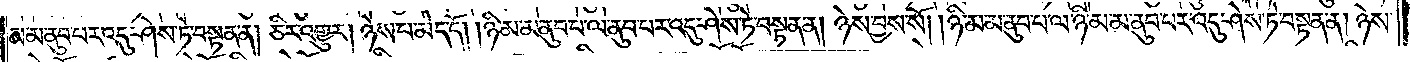མ་མ་ནུབ་པར་འདུ་ཤེས་ཏེ་བསྟན་ན། ཅིར་འགྱུར། ཉེས་པ་མེད་དོ། །ཉི་མ་མ་ནུབ་པ་ལ་ནུབ་པར་འདུ་ཤེས་ཏེ་བསྟན་ན། ཉེས་བྱས་སོ། །ཉི་མ་མ་ནུབ་པ་ལ་ཉི་མ་མ་ནུབ་པར་འདུ་ཤེས་ཏེ་བསྟན་ན། ཉེས་
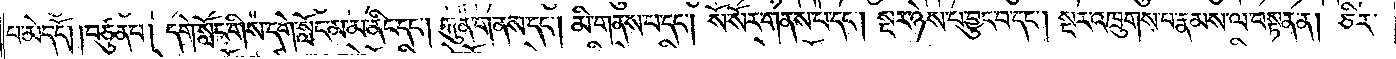པ་མེད་དོ། །བཙུན་པ། དགེ་སློང་གིས་དགེ་སློང་མ་མ་ནིང་དང༌། རྐུན་གནས་དང༌། མི་གནས་པ་དང༌། སོ་སོར་གནས་པ་དང༌། སྔར་ཉེས་པ་བྱུང་བ་དང༌། སྔར་འཁྲུགས་པ་རྣམས་ལ་བསྟན་ན། ཅིར་
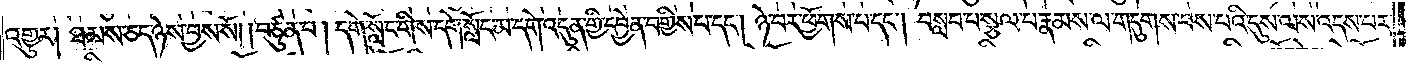འགྱུར། ཐམས་ཅད་ཉེས་བྱས་སོ། །བཙུན་པ། དགེ་སློང་གིས་དགེ་སློང་མ་དགེ་འདུན་གྱི་དབྱེན་བགྱིས་པ་དང༌། ཉེ་བར་ཕྱོགས་པ་དང༌། བསླབ་པ་སྩལ་པ་རྣམས་ལ་གདུགས་བས་པའི་དུས་ལས་འདས་པར་
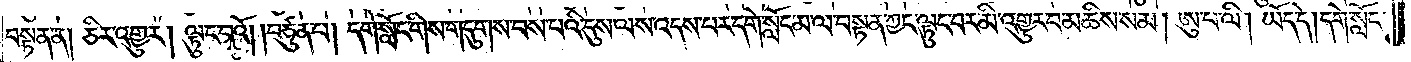བསྟན་ན། ཅིར་འགྱུར། ལྟུང་བའོ། །བཙུན་པ། དགེ་སློང་གིས་གདུགས་བས་པའི་དུས་ལས་འདས་པར་དགེ་སློང་མ་ལ་བསྟན་ཀྱང་ལྟུང་བར་མི་འགྱུར་བ་མཆིས་སམ། ཨུ་པ་ལི། ཡོད་དེ། དགེ་སློང་
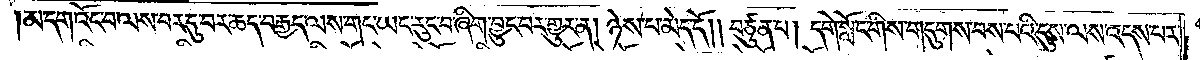།མ་དག་འོང་བ་ལས་བར་དུ་བར་ཆད་བརྒྱད་ལས་གང་ཡང་རུང་བ་ཞིག་བྱུང་བར་གྱུར་ན། ཉེས་པ་མེད་དོ། །བཙུན་པ། དགེ་སློང་གིས་གདུགས་བས་པའི་དུས་ལས་འདས་པར་
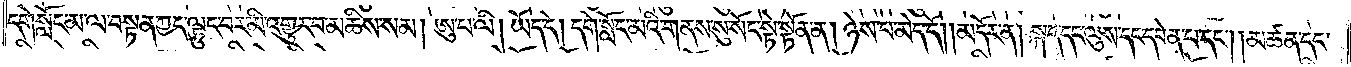དགེ་སློང་མ་ལ་བསྟན་ཀྱང་ལྟུང་བར་མི་འགྱུར་བ་མཆིས་སམ། ཨུ་པ་ལི། ཡོད་དེ། དགེ་སློང་མའི་གནས་སུ་སོང་སྟེ་སྟོན་ན། ཉེས་པ་མེད་དོ།    །མདོར་ན། སྐད་དང་ལུས་དང་དབེན་པ་དང༌། །མཚན་དང་
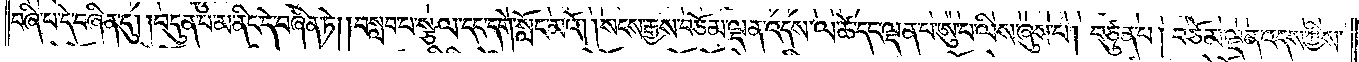བཞི་པ་དེ་བཞིན་དུ། །བདུན་པ་མ་ནིང་དེ་བཞིན་ཏེ། །བསླབ་པ་སྩལ་དང་དགེ་སློང་མའོ། །སངས་རྒྱས་བཅོམ་ལྡན་འདས་ལ་ཚེ་དང་ལྡན་པ་ཨུ་པ་ལིས་ཞུས་པ། བཙུན་པ། བཅོམ་ལྡན་འདས་ཀྱིས་
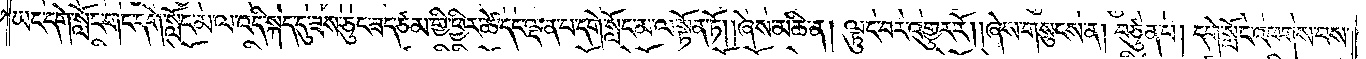ཡང་དགེ་སློང་གང་དགེ་སློང་མ་ལ་འདི་སྐད་དུ་ཟས་ཅུང་ཟད་ཙམ་གྱི་ཕྱིར་ཚེ་དང་ལྡན་པ་དགེ་སློང་མ་ལ་སྟོན་ཏོ། །ཞེས་མཆི་ན། ལྟུང་བར་འགྱུར་རོ། །ཞེས་གསུངས་ན། བཙུན་པ། དགེ་སློང་འཕགས་པས་
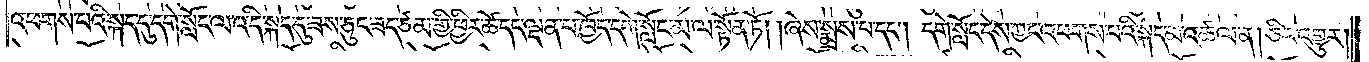འཕགས་པའི་སྐད་དུ་དགེ་སློང་ལ་འདི་སྐད་དུ་ཟད་ཅུང་ཟད་ཙམ་གྱི་ཕྱིར་ཚེ་དང་ལྡན་པ་ཁྱོད་དགེ་སློང་མ་ལ་སྟོན་ཏོ། །ཞེས་སྨྲས་པ་དང༌། དགེ་སློང་དེས་ཀྱང་འཕགས་པའི་སྐད་མ་འཚལ་ན། ཅིར་འགྱུར་
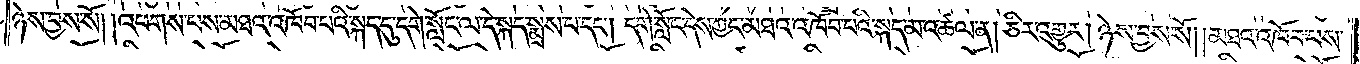ཉེས་བྱས་སོ། །འཕགས་པས་མཐའ་འཁོབ་པའི་སྐད་དུ་དགེ་སློང་ལ་དེ་སྐད་སྨྲས་པ་དང༌། དགེ་སློང་དེས་ཀྱང་མཐའ་འཁོབ་པའི་སྐད་མ་འཚལ་ན། ཅིར་འགྱུར། ཉེས་བྱས་སོ། །མཐའ་འཁོབ་པས་
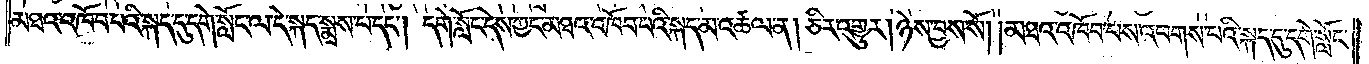མཐའ་འཁོབ་པའི་སྐད་དུ་དགེ་སློང་ལ་དེ་སྐད་སྨྲས་པ་དང༌། དགེ་སློང་དེས་ཀྱང་མཐའ་འཁོབ་པའི་སྐད་མ་འཚལ་ན། ཅིར་འགྱུར། ཉེས་བྱས་སོ། །མཐའ་འཁོབ་པས་འཕགས་པའི་སྐད་དུ་དགེ་སློང་
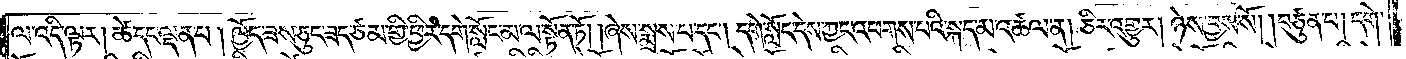ལ་འདི་ལྟར། ཚེ་དང་ལྡན་པ། ཁྱོད་ཟས་ཅུང་ཟད་ཙམ་གྱི་ཕྱིར་དགེ་སློང་མ་ལ་སྟོན་ཏོ། །ཞེས་སྨྲས་པ་དང༌། དགེ་སློང་དེས་ཀྱང་འཕགས་པའི་སྐད་མ་འཚལ་ན། ཅིར་འགྱུར། ཉེས་བྱས་སོ། །བཙུན་པ། དགེ་
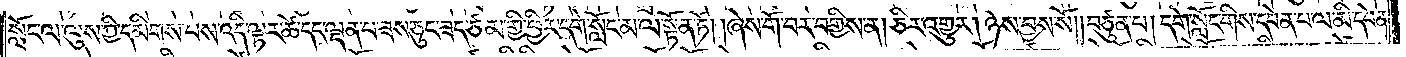སློང་ལ་ལུས་ཀྱི་དམིགས་པས་འདི་ལྟར་ཚེ་དང་ལྡན་པ་ཟས་ཅུང་ཟད་ཙམ་གྱི་ཕྱིར་དགེ་སློང་མ་ལ་སྟོན་ཏོ། །ཞེས་གོ་བར་བགྱིས་ན། ཅིར་འགྱུར། ཉེས་བྱས་སོ། །བཙུན་པ། དགེ་སློང་གིས་དབེན་པ་ལ་མི་དབེན་
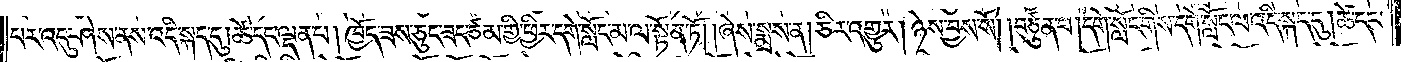པར་འདུ་ཤེས་ནས་འདི་སྐད་དུ། ཚེ་དང་ལྡན་པ། ཁྱོད་ཟས་ཅུང་ཟད་ཙམ་གྱི་ཕྱིར་དགེ་སློང་མ་ལ་སྟོན་ཏོ། །ཞེས་སྨྲས་ན། ཅིར་འགྱུར། ཉེས་བྱས་སོ། །བཙུན་པ། དགེ་སློང་གིས་དགེ་སློང་ལ་འདི་སྐད་དུ། ཚེ་དང་
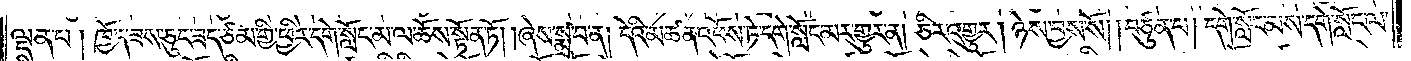ལྡན་པ། ཁྱོད་ཟས་ཅུང་ཟད་ཙམ་གྱི་ཕྱིར་དགེ་སློང་མ་ལ་ཆོས་སྟོན་ཏོ། །ཞེས་སྨྲ་བ་ན། དེའི་མཚན་འཕོས་ཏེ་དགེ་སློང་མར་གྱུར་ན། ཅིར་འགྱུར། ཉེས་བྱས་སོ། །བཙུན་པ། དགེ་སློང་མས་དགེ་སློང་ལ་
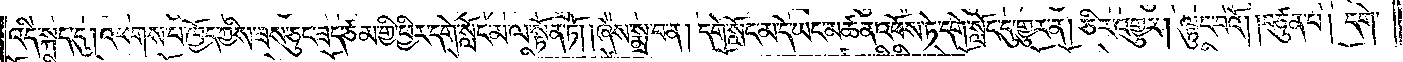འདི་སྐད་དུ། འཕགས་པ་ཁྱོད་ཀྱིས་ཟས་ཅུང་ཟད་ཙམ་གྱི་ཕྱིར་དགེ་སློང་མ་ལ་སྟོན་ཏོ། །ཞེས་སྨྲ་བ་ན། དགེ་སློང་མ་དེ་ཡང་མཚན་འཕོས་ཏེ་དགེ་སློང་དུ་གྱུར་ན། ཅིར་འགྱུར། ལྟུང་བའོ། །བཙུན་པ། དགེ་
